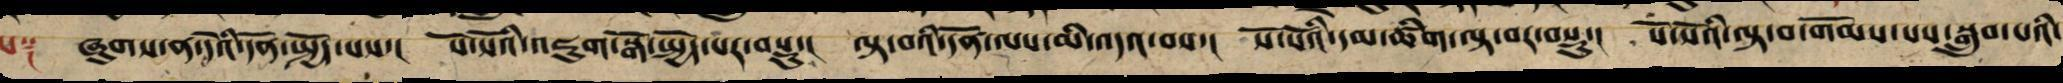པ༑ ཞུགས་ན་དེའི་དོན་སྤྱོད་པས་། སོ་སོའི་འཇུག་སྒོ་སྤྱོད་པར་བསྡུ་། ལྟ་བའི་དོན་ལས་མི་འདའ་བས་། སོ་སོའི་དམ་ཚིག་ལྟ་བར་བསྡུ་། སོ་སོའི་ལྟ་བ་གོམས་པས་སྒྲུབ་པའི་
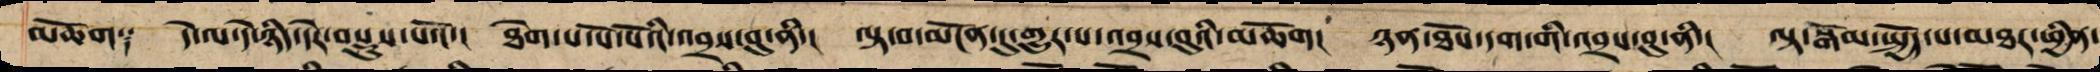མཆོག༑ དེ་ལ་དེ་ཉིད་དེར་བསྡུས་པའོ་། ཐེག་པ་སོ་སོའི་འབྲས་བུ་ནི་། ལྟ་བ་མངོན་དུ་གྱུར་པ་འབྲས་བུའི་མཆོག། ཉན་ཐོས་དག་གི་འབྲས་བུ་ནི་། ལྟ་སྒོམ་སྤྱོད་པ་མཐར་ཕྱིན་
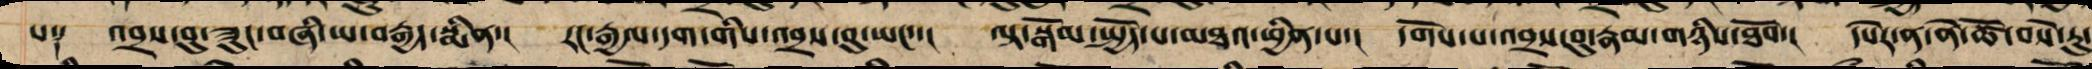པ༑ འབྲས་བུ་ཟུང་བཞི་ཡ་བརྒྱད་སྨིན་། རང་རྒྱལ་དག་གི་འབྲས་བུ་ཡང་་། ལྟ་སྒོམ་སྤྱོད་པ་མཐར་ཕྱིན་པ་། དགོས་པ་འབྲས་བུ་རྣམ་གཉིས་ཐོབ་། དཔེར་ན་ནེ་ཙོ་བསེ་རུ་
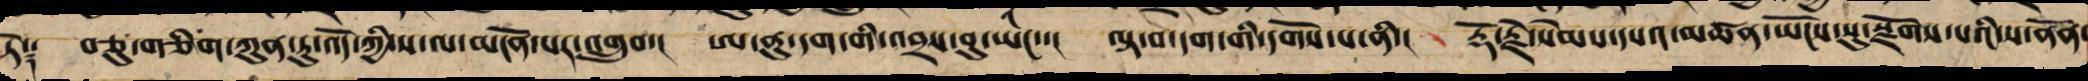ཏེ༑ བཅུ་གཅིག་ཀུན་ཏུ་འོད་ཀྱི་ས་ལ་མངོན་པར་འགྲུབ་། ཨ་ནུ་དག་གི་འབྲས་བུ་ཡང་་། ལྟ་བ་དག་གི་དགོས་པ་ནི་། རྡོ་རྗེ་སེམས་དཔའ་མཚན་ཡོངས་སུ་སྫོགས་པའི་ས་ནོན་
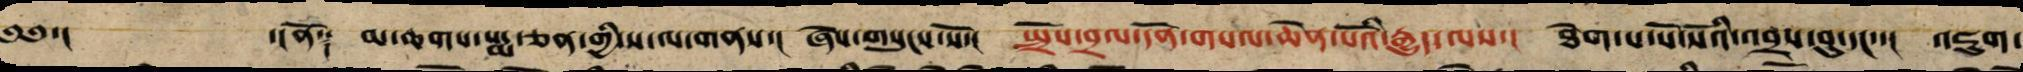༄༅་། ་།ནོ༑ མ་ཆགས་པདྨ་ཅན་གྱི་ས་ལ་གནས་། ཞེས་གསུངས་སོ་། སྤྲོས་བྲལ་དོན་གསལ་ཆེན་པོའི་རྒྱུད་ལས་། ཐེག་པ་སོ་སོའི་འབྲས་བུ་དང་་། འཇུག་
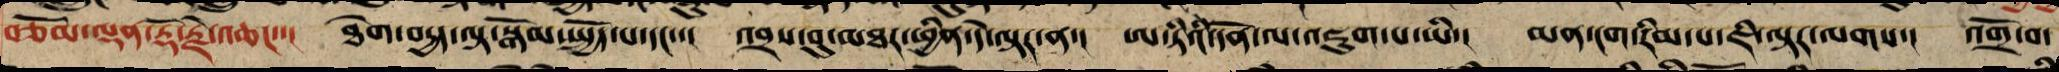བཅོམ་ལྡན་རྡོ་རྗེ་འཆང་་། ཐེག་བདྱད་ལྟ་སྒོམ་སྤྱོད་པ་དང་་། འབྲས་བུ་མཐར་ཕྱིན་དེ་ལྟར་ན་། ཨ་ཏིའི་དོན་ལ་འཇུག་པ་ཡི་། མན་ངག་རིམ་པ་ཇི་ལྟར་ལགས་། འགྲོ་བ་
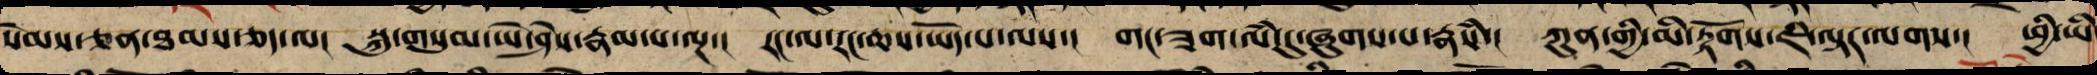སེམས་ཅན་ཐམས་ཅད་ལ། སྐུ་གསུམ་ཡེ་ཤེས་རྣམ་པ་ལྔ་། རང་ལ་རང་ཆས་ཡོད་པ་ལ་། གང་ཟག་ལམ་དུ་ཞུགས་པ་རྣཾས་། ཀུན་གྱི་མི་རྟོགས་ཇི་ལྟར་ལགས་། ཕྱི་ཡི
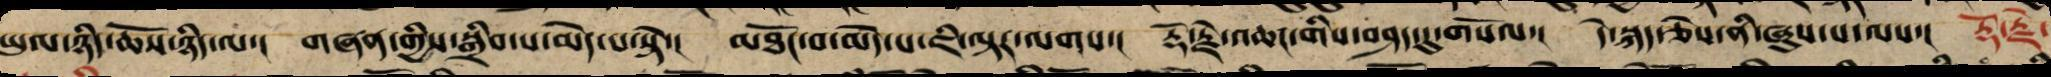ཡུལ་ཉིད་ཆོས་ཉིད་ལ་། གཞན་གྱིས་སྒྲིབ་པ་མེད་པ་སྟེ་། མཐོང་བ་མེད་པ་ཇི་ལྟར་ལགས་། རྡོ་རྗེ་འཆང་གིས་བཤད་དུ་གསོལ་། དེ་སྐད་ཅེས་ནི་ཞུས་པ་ལས་། རྡོ་རྗེ་
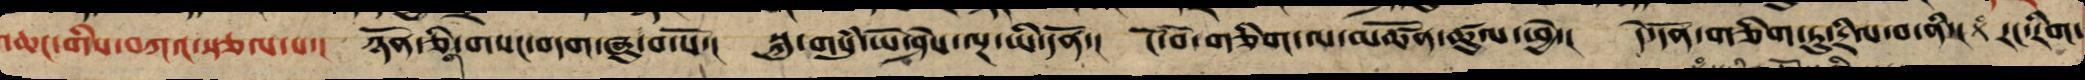འཆང་གིས་བཀའ་སྩལ་པ་། ཉོན་ཅིག་གསང་བདག་ཞུ་བ་པོ་། སྐུ་གསུཾ་ཡེ་ཤེས་ལྔ་ཡི་དོན་། ངོ་བོ་གཅིག་ལ་མཚོན་ཚུལ་ཕྱེ་། དེ་དོན་གཅིག་ཏུ་དྲིལ་བ་ནི་། རང་རིག་
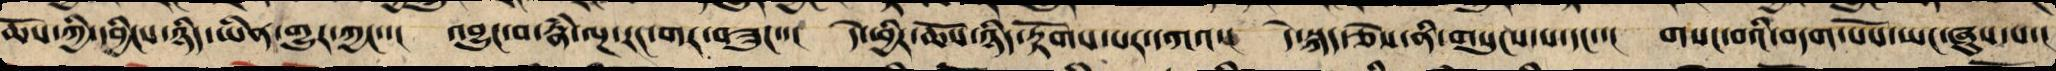ཆོས་ཀྱི་དབྱིངས་ཉིད་ཡིན་གྱུར་ཀྱང་་། འབྱུང་བ་རྣཾ་ལྔ་རང་གར་བཟུང་་། དེ་ཕྱིར་ཆོས་ཉིད་རྟོགས་པར་དཀའ་། དེ་སྐད་ཅེས་ནི་གསུངས་པ་དང་་། གསང་བའི་བདག་པོས་ཡང་ཞུས་པ་།
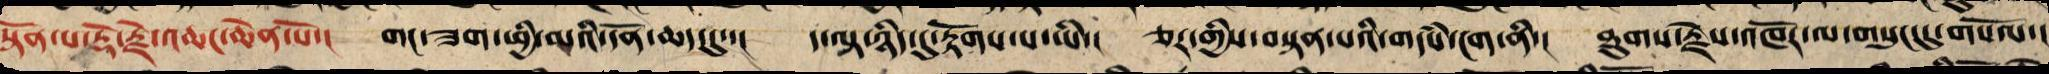སྟོན་པ་རྡོ་རྗེ་འཆང་ཆེན་པོ་། གང་ཟག་ཕྱི་མའི་དོན་ཆད་དུ་་། ད་ལྟ་ཉིད་དུ་རྟོགས་པ་ཡི་། ཅར་གྱིས་བསྟན་པའི་གདཾས་ངག་ནི་། ཐུགས་རྗེས་འཁོར་ལ་གསུང་དུ་གསོལ་།
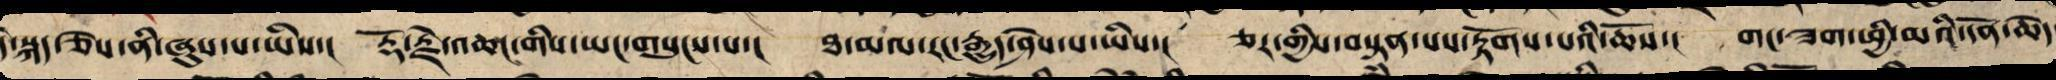དེ་སྐད་ཅེས་ནི་ཞུས་པ་ཡིས་། རྡོ་རྗེ་འཆང་གིས་ཡང་གསུངས་པ་། ཐ་མལ་རང་རྒྱུད་ཤེས་པ་ཡིས་། ཅར་གྱིས་བསྟན་པས་རྟོགས་པའི་ཆོས་། གང་ཟག་ཕྱི་མའི་དོན་ཆེད་
